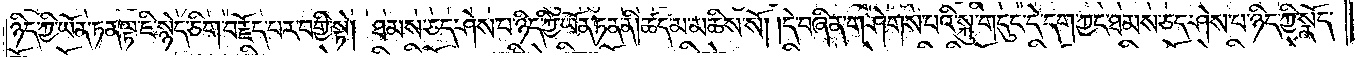ཉིད་ཀྱི་ཡོན་ཏན་ལྟ་ཇི་སྙེད་ཅིག་བརྗོད་པར་བགྱི་སྟེ། ཐམས་ཅད་ཤེས་པ་ཉིད་ཀྱི་ཡོན་ཏན་ནི། ཚད་མ་མཆིས་སོ། །དེ་བཞིན་གཤེགས་པའི་སྐུ་གདུང་དེ་དག་ཀྱང་ཐམས་ཅད་ཤེས་པ་ཉིད་ཀྱི་སྣོད་
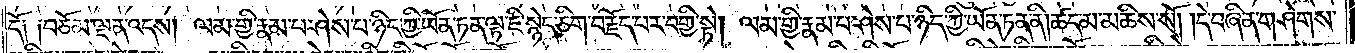དོ༑ ༑བཅོམ་ལྡན་འདས། ལམ་གྱི་རྣམ་པ་ཤེས་པ་ཉིད་ཀྱི་ཡོན་ཏན་ལྟ་ཇི་སྙེད་ཅིག་བརྗོད་པར་བགྱི་སྟེ། ལམ་གྱི་རྣམ་པ་ཤེས་པ་ཉིད་ཀྱི་ཡོན་ཏན་ནི།ཚད་མ་མཆིས་སོ། །དེ་བཞིན་གཤེགས་
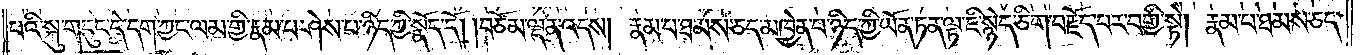པའི་སྐུ་གདུང་དེ་དག་ཀྱང༌ལམ་གྱི་རྣམ་པ་ཤེས་པ་ཉིད་ཀྱི་སྣོད་དོ། །བཅོམ་ལྡན་འདས། རྣམ་པ་ཐམས་ཅད་མཁྱེན་པ་ཉིད་ཀྱི་ཡོན་ཏན་ལྟ་ཇི་སྙེད་ཅིག་བརྗོད་པར་བགྱི་སྟེ། རྣམ་པ་ཐམས་ཅད་
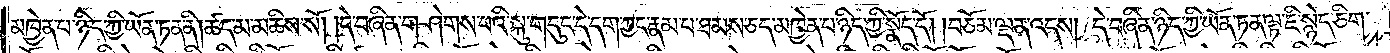མཁྱེན་པ་ཉིད་ཀྱི་ཡོན་ཏན་ནི། ཚད་མ་མཆིས་སོ། །དེ་བཞིན་གཤེགས་པའི་སྐུ་གདུང་དེ་དག་ཀྱང་རྣམ་པ་ཐམས་ཅད་མཁྱེན་པ་ཉིད་ཀྱི་སྣོད་དོ། །བཅོམ་ལྡན་འདས། དེ་བཞིན་ཉིད་ཀྱི་ཡོན་ཏན་ལྟ་ཇི་སྙེད་ཅིག་
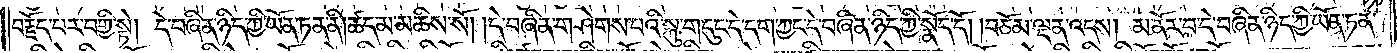བརྗོད་པར་བགྱི་སྟེ། དེ་བཞིན་ཉིད་ཀྱི་ཡོན་ཏན་ནི།ཚད་མ་མཆིས་སོ། །དེ་བཞིན་གཤེགས་པའི་སྐུ་གདུང་དེ་དག་ཀྱང་དེ་བཞིན་ཉིད་ཀྱི་སྣོད་དོ། །བཅོམ་ལྡན་འདས། མ་ནོར་བ་དེ་བཞིན་ཉིད་ཀྱི་ཡོན་ཏན་
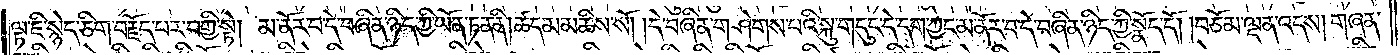ལྟ་ཇི་སྙེད་ཅིག་བརྗོད་པར་བགྱི་སྟེ། མ་ནོར་བ་དེ་བཞིན་ཉིད་ཀྱི་ཡོན་ཏན་ནི།ཚད་མ་མཆིས་སོ། །དེ་བཞིན་གཤེགས་པའི་སྐུ་གདུང་དེ་དག་ཀྱང་མ་ནོར་བ་དེ་བཞིན་ཉིད་ཀྱི་སྣོད་དོ། །བཅོམ་ལྡན་འདས། གཞན་
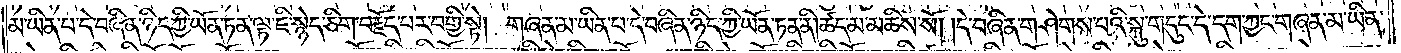མ་ཡིན་པ་དེ་བཞིན་ཉིད་ཀྱི་ཡོན་ཏན་ལྟ་ཇི་སྙེད་ཅིག་བརྗོད་པར་བགྱི་སྟེ། གཞན་མ་ཡིན་པ་དེ་བཞིན་ཉིད་ཀྱི་ཡོན་ཏན་ནི།ཚད་མ་མཆིས་སོ། །དེ་བཞིན་གཤེགས་པའི་སྐུ་གདུང་དེ་དག་ཀྱང་གཞན་མ་ཡིན་
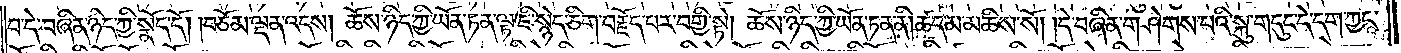བ་དེ་བཞིན་ཉིད་ཀྱི་སྣོད་དོ། །བཅོམ་ལྡན་འདས། ཆོས་ཉིད་ཀྱི་ཡོན་ཏན་ལྟ་ཇི་སྙེད་ཅིག་བརྗོད་པར་བགྱི་སྟེ། ཆོས་ཉིད་ཀྱི་ཡོན་ཏན་ནི། ཚད་མ་མཆིས་སོ། །དེ་བཞིན་གཤེགས་པའི་སྐུ་གདུང་དེ་དག་ཀྱང་
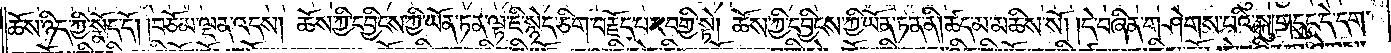ཆོས་ཉིད་ཀྱི་སྣོད་དོ། །བཅོམ་ལྡན་འདས། ཆོས་ཀྱི་དབྱིངས་ཀྱི་ཡོན་ཏན་ལྟ་ཇི་སྙེད་ཅིག་བརྗོད་པར་བགྱི་སྟེ། ཆོས་ཀྱི་དབྱིངས་ཀྱི་ཡོན་ཏན་ནི། ཚད་མ་མཆིས་སོ། །དེ་བཞིན་གཤེགས་པའི་སྐུ་གདུང་དེ་དག་
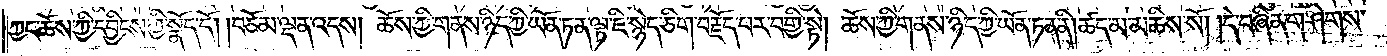ཀྱང་ཆོས་ཀྱི་དབྱིངས་ཀྱི་སྣོད་དོ། །བཅོམ་ལྡན་འདས། ཆོས་ཀྱི་གནས་ཉིད་ཀྱི་ཡོན་ཏན་ལྟ་ཇི་སྙེད་ཅིག་བརྗོད་པར་བགྱི་སྟེ། ཆོས་ཀྱི་གནས་ཉིད་ཀྱི་ཡོན་ཏན་ནི། ཚད་མ་མཆིས་སོ། །དེ་བཞིན་གཤེགས་
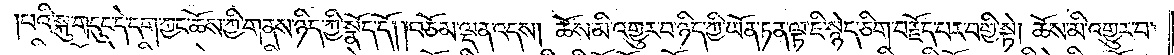པའི་སྐུ་གདུང་དེ་དག་ཀྱང་ཆོས་ཀྱི་གནས་ཉིད་ཀྱི་སྣོད་དོ། །བཅོམ་ལྡན་འདས། ཆོས་མི་འགྱུར་བ་ཉིད་ཀྱི་ཡོན་ཏན་ལྟ་ཇི་སྙེད་ཅིག་བརྗོད་པར་བགྱི་སྟེ། ཆོས་མི་འགྱུར་བ་
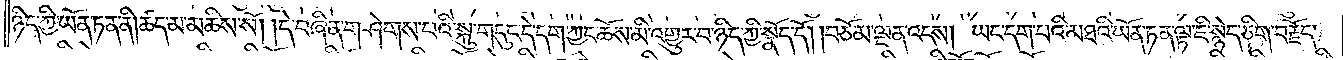ཉིད་ཀྱི་ཡོན་ཏན་ནི་ཚད་མ་མཆིས་སོ། །དེ་བཞིན་གཤེགས་པའི་སྐུ་གདུང་དེ་དག་ཀྱང་ཆོས་མི་འགྱུར་བ་ཉིད་ཀྱི་སྣོད་དོ། །བཅོམ་ལྡན་འདས། ཡང་དག་པའི་མཐའི་ཡོན་ཏན་ལྟ་ཇི་སྙེད་ཅིག་བརྗོད་
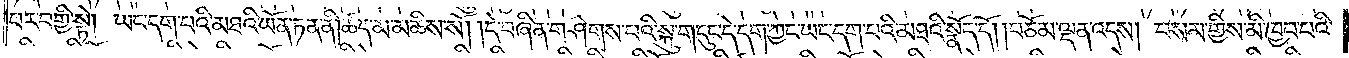པར་བགྱི་སྟེ། ཡང་དག་པའི་མཐའི་ཡོན་ཏན་ནི། ཚད་མ་མཆིས་སོ། །དེ་བཞིན་གཤེགས་པའི་སྐུ་གདུང་དེ་དག་ཀྱང་ཡང་དག་པའི་མཐའི་སྣོད་དོ། །བཅོམ་ལྡན་འདས། བསམ་གྱིས་མི་ཁྱབ་པའི་
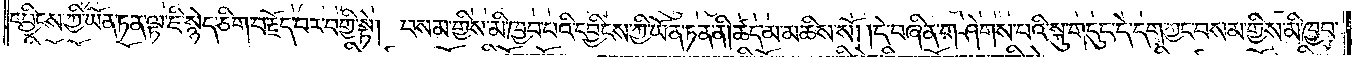དབྱིངས་ཀྱི་ཡོན་ཏན་ལྟ་ཇི་སྙེད་ཅིག་བརྗོད་པར་བགྱི་སྟེ། བསམ་གྱིས་མི་ཁྱབ་པའི་དབྱིངས་ཀྱི་ཡོན་ཏན་ནི། ཚད་མ་མཆིས་སོ། །དེ་བཞིན་གཤེགས་པའི་སྐུ་གདུང་དེ་དག་ཀྱང་བསམ་གྱིས་མི་ཁྱབ་
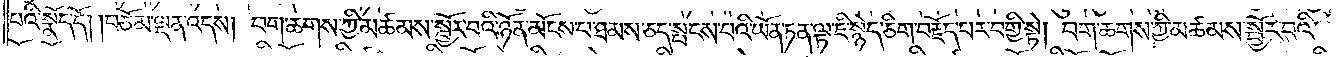པའི་སྣོད་དོ། །བཅོམ་ལྡན་འདས། བག་ཆགས་ཀྱི་མཚམས་སྦྱོར་བའི་ཉོན་མོངས་པ་ཐམས་ཅད་སྤངས་པའི་ཡོན་ཏན་ལྟ་ཇི་སྙེད་ཅིག་བརྗོད་པར་བགྱི་སྟེ། བག་ཆགས་ཀྱི་མཚམས་སྦྱོར་བའི་
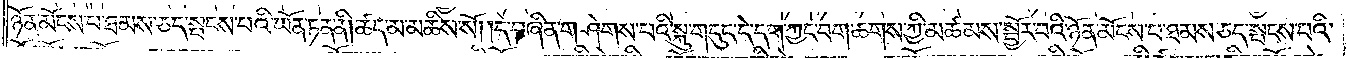ཉོན་མོངས་པ་ཐམས་ཅད་སྤངས་པའི་ཡོན་ཏན་ནི། །ཚད་མ་མཆིས་སོ། །དེ་བཞིན་གཤེགས་པའི་སྐུ་གདུང་དེ་དག་ཀྱང་བག་ཆགས་ཀྱི་མཚམས་སྦྱོར་བའི་ཉོན་མོངས་པ་ཐམས་ཅད་སྤངས་པའི་
